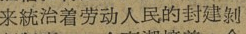来統治着劳动人民的封建剝
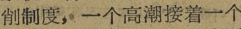削制度，一个高潮接着一个
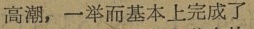高潮，一举而基本上完成了
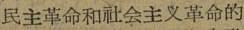民主革命和社会主义革命的
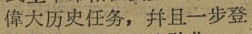偉大历史任务，并且一步登
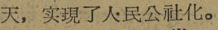天，实現了人民公社化。
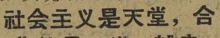社会主义是天堂，合
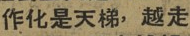作化是天梯，越走
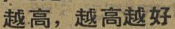越高，越高越好
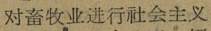对畜牧业进行社会主义
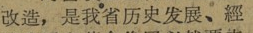改造，是我省历史发展、經
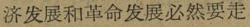济发展和革命发展必然要走
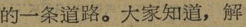的一条道路。大家知道，解
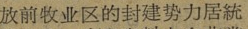放前牧业区的封建势力居統
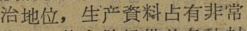治地位，生产資料占有非常
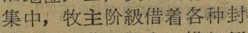集中，牧主阶級借着各种封
